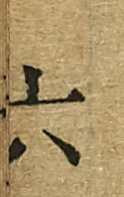六
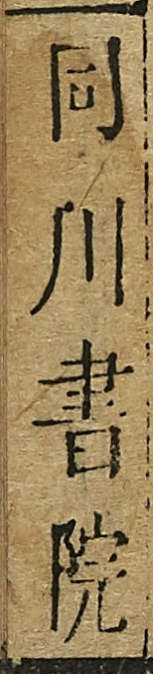同川書院
